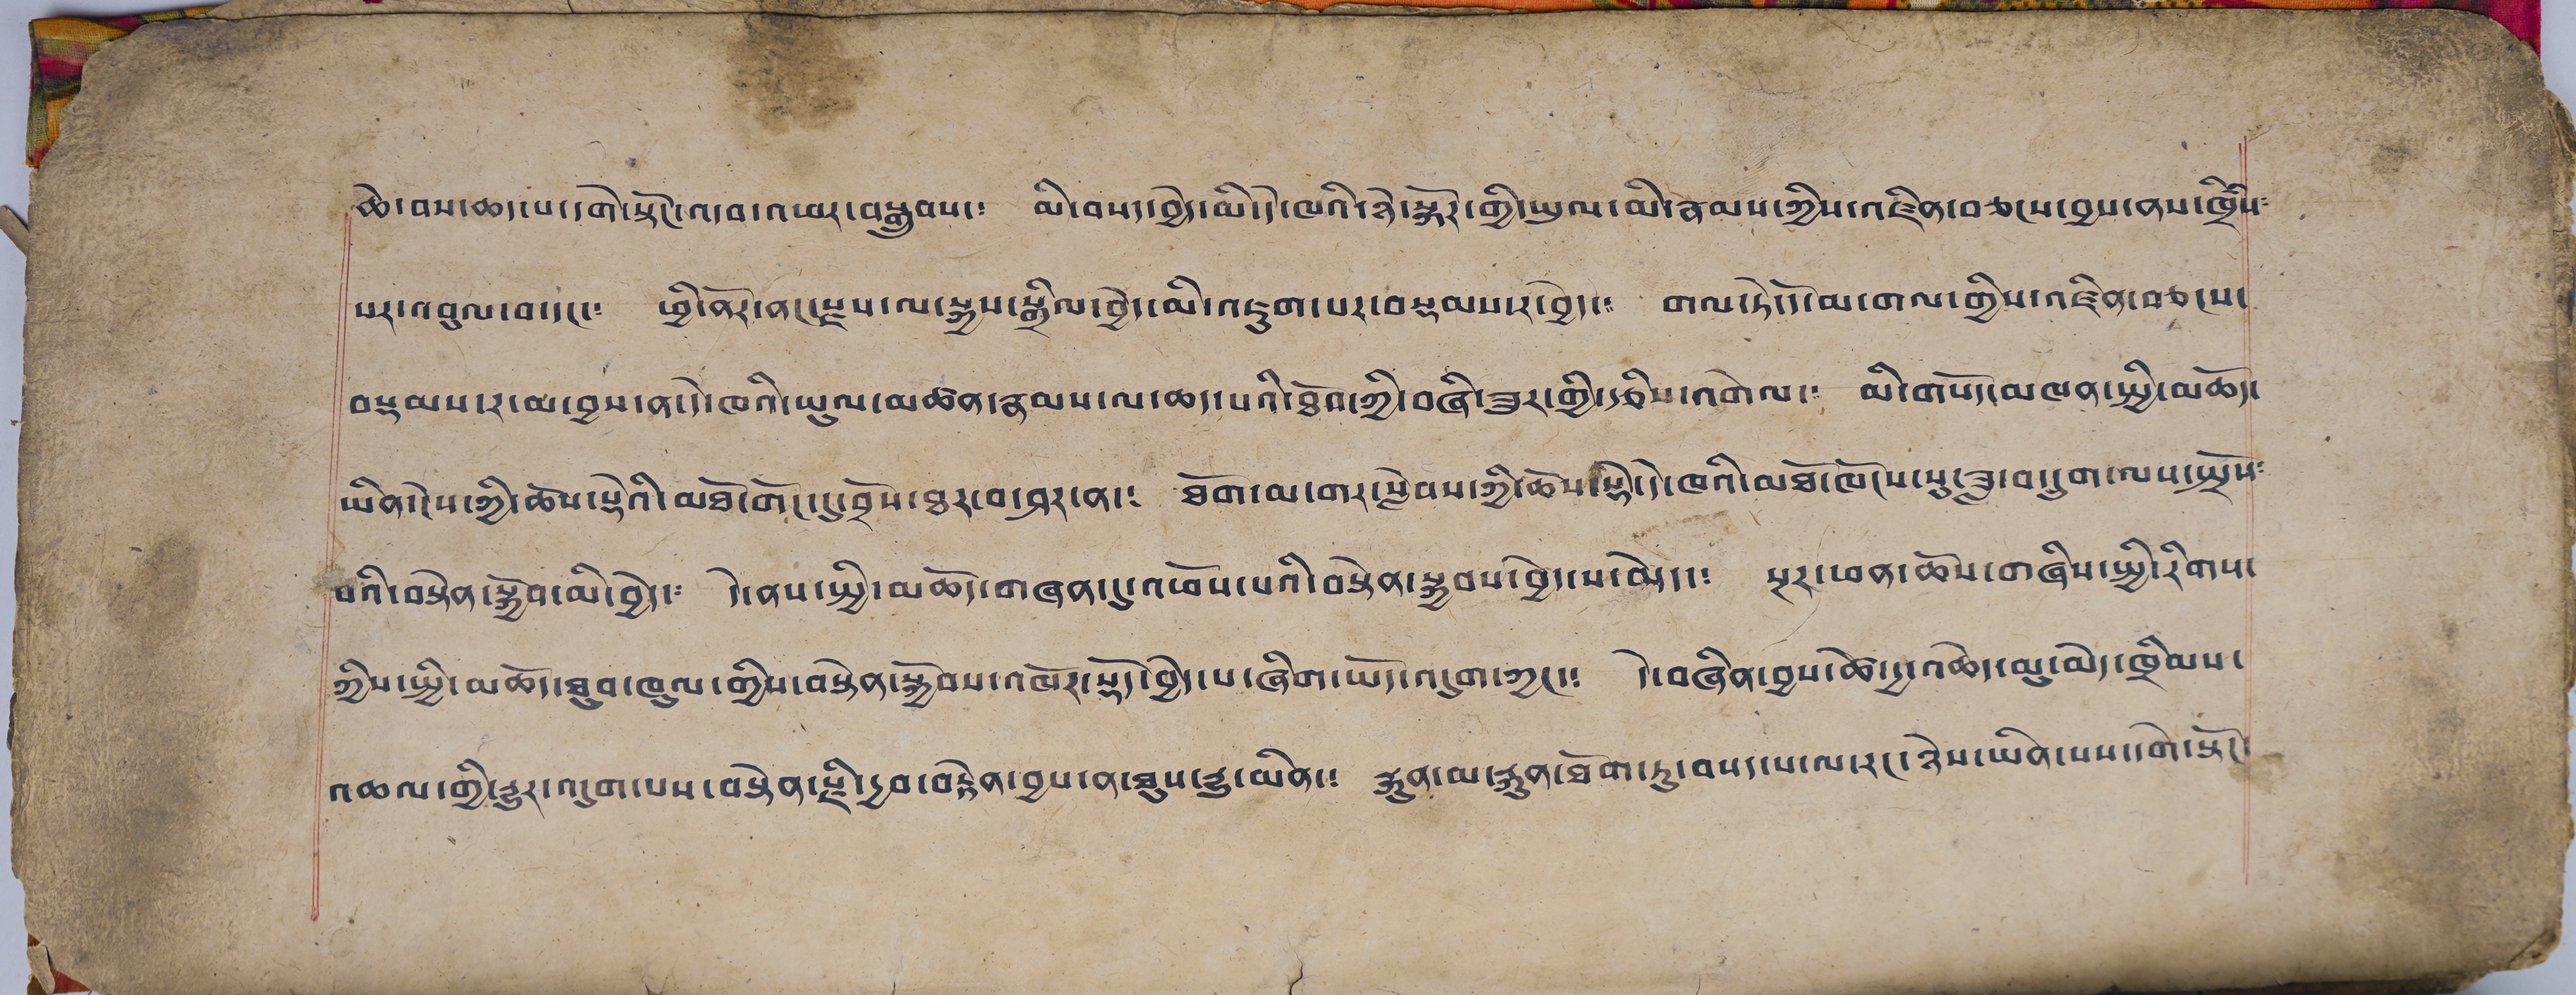ཆེ་བས་ཆད་པ་དགེ་སྟོང་འདབ་འཕར་བསྒྲུབས་༴ མི་བསད་བྱེད་མི་དེ་ཁའི་ཉེ་སྐོར་གྱི་ཡུལ་མི་རྣམས་ཀྱིས་འཛིན་བཅངས་བྱས་ནས་ཁྲིཾས༴
པར་འབུལ་བ་དང་༴ ཕྱི་ནོར་ནང་རྫས་ལ་སྐྱས་སྒྲིལ་བྱེད་མི་འཇུག་པར་བསྡམས་ར་བྱེད་༴ གལ་ཏེ་དོ་མ་གལ་གྱིས་འཛིན་བཅངས་
བསྡམས་ར་མ་བྱས་ན་དེ་ཁའི་ཡུལ་མཚན་རྣམས་ལ་ཆད་པའི་ཐོབ་ཀྱི་བཞི་ཟུར་གྱི་རྩིས་འགེལ་༴ མི་གསོད་མཁན་སྤྱི་མཆོད་
ཡིན་ངེས་ཀྱི་ཆོས་སྡེའི་མཐོ་གོང་དུ་བྲོས་ཐར་བ་ཤར་ན་༴ ཐོག་མ་གར་སླེབས་ཀྱི་ཆོས་སྡེ་དེ་ཁའི་མཐོ་ཁོངས་སུ་ཟླ་བ་དྲུག་ལས་སྤྲོས༴
པའི་བསྟེན་སྐྱོབ་མི་བྱེད་༴ དེ་ནས་སྤྱི་མཆོད་གཞན་དུ་འཕོས་པའི་བསྟེན་སྐྱབས་བྱེད་པ་མེད་༴ སྔར་ཕན་ཆོས་གཞིས་སྤྱི་རིགས་
ཀྱིས་སྤྱི་མཆོད་ཐུབ་ཁུལ་གྱིས་བསྟེན་སྐྱོབས་འཁོར་སྡོད་བྱེད་པ་ཞིག་ཡོད་འདུག་ཀྱང་༴ དེ་བཞིན་བྱས་ཚེ་དྱ་འཆེད་མུ་མེད་ཁྲིམས་
འཆལ་གྱི་རྒྱུར་འདུག་པས་བསྟེན་རྫི་དྱབ་བརྟེན་བྱས་ན་ཐུས་རྒྱུ་མིན་༴ རྐུན་མ་རྐུན་ཐོག་ཏུ་བསད་པ་ལ་རང་ཉེས་ཡིན་པས་དགེ་སྟོང་
